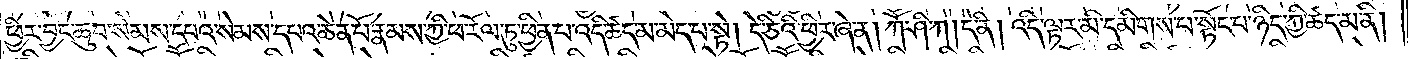ཕྱིར་བྱང་ཆུབ་སེམས་དཔའ་སེམས་དཔའ་ཆེན་པོ་རྣམས་ཀྱི་ཕ་རོལ་ཏུ་ཕྱིན་པ་འདི་ཚད་མ་མེད་པ་སྟེ། དེ་ཅིའི་ཕྱིར་ཞེ་ན། ཀཽ་ཤི་ཀ །དེ་ནི། འདི་ལྟར་མི་དམིགས་པ་སྟོང་པ་ཉིད་ཀྱི་ཚད་མ་ནི།
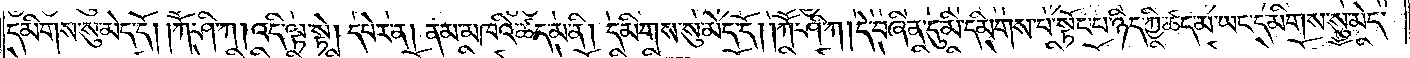དམིགས་སུ་མེད་དོ། །ཀཽ་ཤི་ཀ །འདི་ལྟ་སྟེ། དཔེར་ན། ནམ་མཁའི་ཚད་མ་ནི། དམིགས་སུ་མེད་དོ། །ཀཽ་ཤི་ཀ་དེ་བཞིན་དུ་མི་དམིགས་པ་སྟོང་པ་ཉིད་ཀྱི་ཚད་མ་ཡང་དམིགས་སུ་མེད་
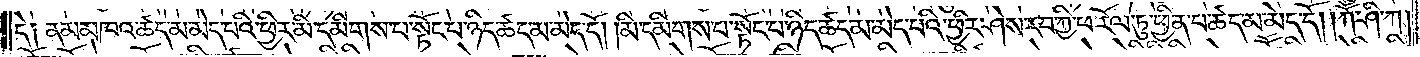དེ། ནམ་མཁའ་ཚད་མ་མེད་པའི་ཕྱིར་མི་དམིགས་པ་སྟོང་པ་ཉིད་ཚད་མ་མེད་དོ། །མི་དམིགས་པ་སྟོང་པ་ཉིད་ཚད་མ་མེད་པའི་ཕྱིར་ཤེས་རབ་ཀྱི་ཕ་རོལ་ཏུ་ཕྱིན་པ་ཚད་མ་མེད་དོ། །ཀཽ་ཤི་ཀ།
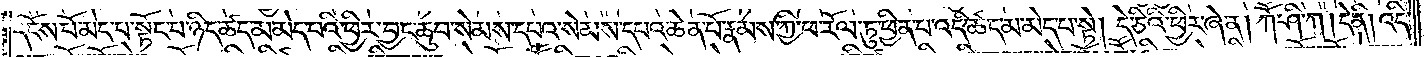དངོས་པོ་མེད་པ་སྟོང་པ་ཉིད་ཚད་མ་མེད་པའི་ཕྱིར་བྱང་ཆུབ་སེམས་དཔའ་སེམས་དཔའ་ཆེན་པོ་རྣམས་ཀྱི་ཕ་རོལ་ཏུ་ཕྱིན་པ་འདི་ཚད་མ་མེད་པ་སྟེ། དེ་ཅིའི་ཕྱིར་ཞེ་ན། ཀཽ་ཤི་ཀ །དེ་ནི། འདི་
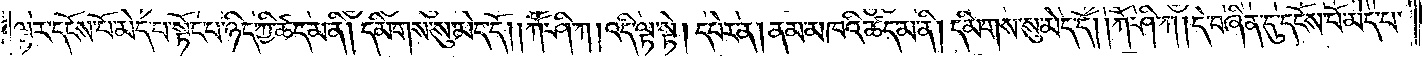ལྟར་དངོས་པོ་མེད་པ་སྟོང་པ་ཉིད་ཀྱི་ཚད་མ་ནི། དམིགས་སུ་མེད་དོ། །ཀཽ་ཤི་ཀ །འདི་ལྟ་སྟེ། དཔེར་ན། ནམ་མཁའི་ཚད་མ་ནི། དམིགས་སུ་མེད་དོ། །ཀཽ་ཤི་ཀ །དེ་བཞིན་དུ་དངོས་པོ་མེད་པ་
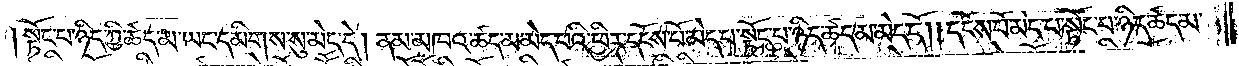སྟོང་པ་ཉིད་ཀྱི་ཚད་མ་ཡང་དམིགས་སུ་མེད་དེ། ནམ་མཁའ་ཚད་མ་མེད་པའི་ཕྱིར་དངོས་པོ་མེད་པ་སྟོང་པ་ཉིད་ཚད་མ་མེད་དོ། །དངོས་པོ་མེད་པ་སྟོང་པ་ཉིད་ཚད་མ་
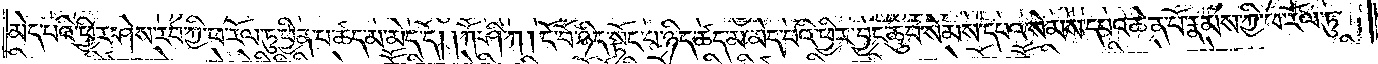མེད་པའི་ཕྱིར་ཤེས་རབ་ཀྱི་ཕ་རོལ་ཏུ་ཕྱིན་པ་ཚད་མ་མེད་དོ། །ཀཽ་ཤི་ཀ །ངོ་བོ་ཉིད་སྟོང་པ་ཉིད་ཚད་མ་མེད་པའི་ཕྱིར་བྱང་ཆུབ་སེམས་དཔའ་སེམས་དཔའ་ཆེན་པོ་རྣམས་ཀྱི་ཕ་རོལ་ཏུ་
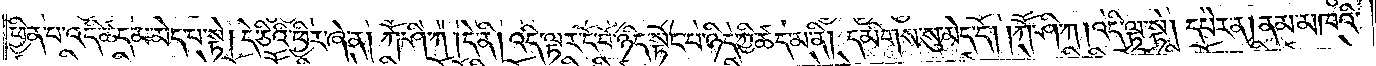ཕྱིན་པ་འདི་ཚད་མ་མེད་པ་སྟེ། དེ་ཅིའི་ཕྱིར་ཞེ་ན། ཀཽ་ཤི་ཀ །དེ་ནི། འདི་ལྟར་ངོ་བོ་ཉིད་སྟོང་པ་ཉིད་ཀྱི་ཚད་མ་ནི། དམིགས་སུ་མེད་དོ། །ཀཽ་ཤི་ཀ །འདི་ལྟ་སྟེ། དཔེར་ན། ནམ་མཁའི་
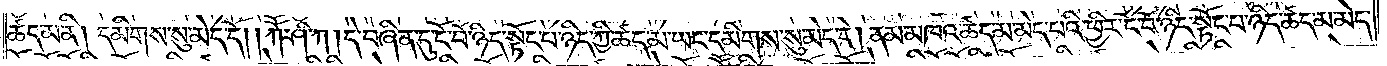ཚད་མ་ནི། དམིགས་སུ་མེད་དོ། །ཀཽ་ཤི་ཀ །དེ་བཞིན་དུ་ངོ་བོ་ཉིད་སྟོང་པ་ཉིད་ཀྱི་ཚད་མ་ཡང་དམིགས་སུ་མེད་དེ། ནམ་མཁའ་ཚད་མ་མེད་པའི་ཕྱིར་ངོ་བོ་ཉིད་སྟོང་པ་ཉིད་ཚད་མ་མེད་
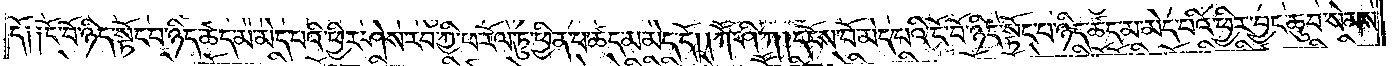དོ༑ ༑ངོ་བོ་ཉིད་སྟོང་པ་ཉིད་ཚད་མ་མེད་པའི་ཕྱིར་ཤེས་རབ་ཀྱི་ཕ་རོལ་ཏུ་ཕྱིན་པ་ཚད་མ་མེད་དོ། །ཀཽ་ཤི་ཀ །དངོས་པོ་མེད་པའི་ངོ་བོ་ཉིད་སྟོང་པ་ཉིད་ཚད་མ་མེད་པའི་ཕྱིར་བྱང་ཆུབ་སེམས་
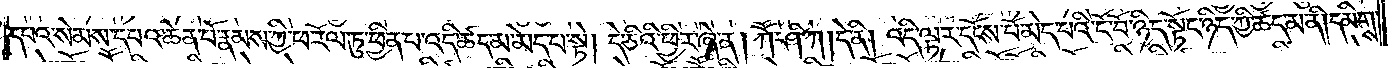དཔའ་སེམས་དཔའ་ཆེན་པོ་རྣམས་ཀྱི་ཕ་རོལ་ཏུ་ཕྱིན་པ་འདི་ཚད་མ་མེད་པ་སྟེ། དེ་ཅིའི་ཕྱིར་ཞེ་ན། ཀཽ་ཤི་ཀ །དེ་ནི། འདི་ལྟར་དངོས་པོ་མེད་པའི་ངོ་བོ་ཉིད་སྟོང་པ་ཉིད་ཀྱི་ཚད་མ་ནི། དམིགས་
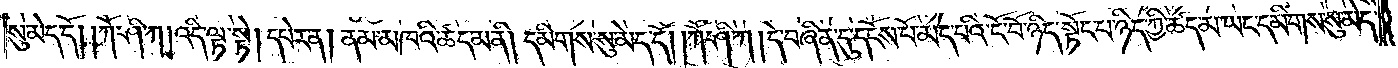སུ་མེད་དོ། །ཀཽ་ཤི་ཀ །འདི་ལྟ་སྟེ། དཔེར་ན། ནམ་མཁའི་ཚད་མ་ནི། དམིགས་སུ་མེད་དོ། །ཀཽ་ཤི་ཀ །དེ་བཞིན་དུ་དངོས་པོ་མེད་པའི་ངོ་བོ་ཉིད་སྟོང་པ་ཉིད་ཀྱི་ཚད་མ་ཡང་དམིགས་སུ་མེད་
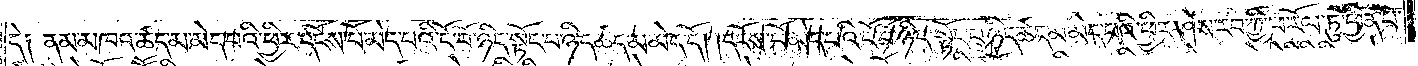དེ༑ ནམ་མཁའ་ཚད་མ་མེད་པའི་ཕྱིར་དངོས་པོ་མེད་པའི་ངོ་བོ་ཉིད་སྟོང་པ་ཉིད་ཚད་མ་མེད་དོ། །དངོས་པོ་མེད་པའི་ངོ་བོ་ཉིད་སྟོང་པ་ཉིད་ཚད་མ་མེད་པའི་ཕྱིར་ཤེས་རབ་ཀྱི་ཕ་རོལ་ཏུ་ཕྱིན་པ་
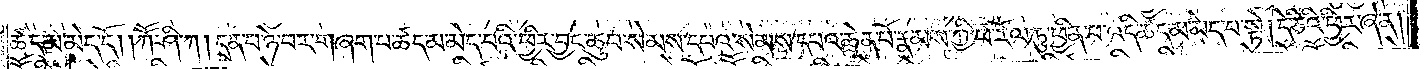ཚད་མ་མེད་དོ། །ཀཽ་ཤི་ཀ །དྲན་པ་ཉེ་བར་གཞག་པ་ཚད་མ་མེད་པའི་ཕྱིར་བྱང་ཆུབ་སེམས་དཔའ་སེམས་དཔའ་ཆེན་པོ་རྣམས་ཀྱི་ཕ་རོལ་ཏུ་ཕྱིན་པ་འདི་ཚད་མ་མེད་པ་སྟེ། དེ་ཅིའི་ཕྱིར་ཞེ་ན།
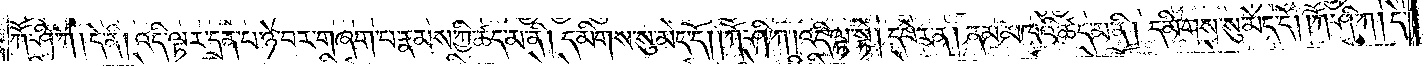ཀཽ་ཤི་ཀ །དེ་ནི། འདི་ལྟར་དྲན་པ་ཉེ་བར་གཞག་པ་རྣམས་ཀྱི་ཚད་མ་ནི། དམིགས་སུ་མེད་དོ། །ཀཽ་ཤི་ཀ །འདི་ལྟ་སྟེ། དཔེར་ན། ནམ་མཁའི་ཚད་མ་ནི། དམིགས་སུ་མེད་དོ། །ཀཽ་ཤི་ཀ །དེ་
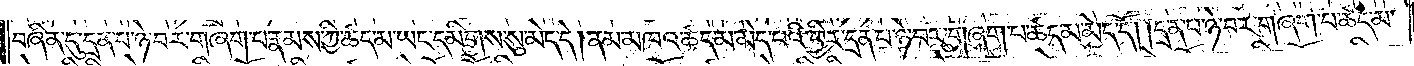བཞིན་དུ་དྲན་པ་ཉེ་བར་བཞག་པ་རྣམས་ཀྱི་ཚད་མ་ཡང་དམིགས་སུ་མེད་དེ། ནམ་མཁའ་ཚད་མ་མེད་པའི་ཕྱིར་དྲན་པ་ཉེ་བར་གཞག་པ་ཚད་མ་མེད་དོ། །དྲན་པ་ཉེ་བར་གཞག་པ་ཚད་མ་
